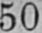50
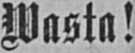Wasta!
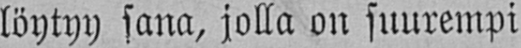Kielessämme löytyy sana, jolla on suurempi
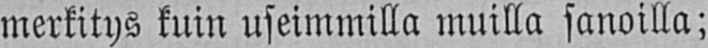merkitys kuin useimmilla muilla sanoilla;
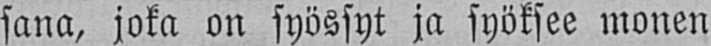sana, joka on syössyt ja syöksee monen
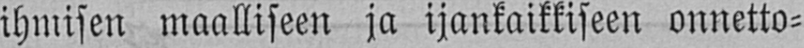ihmisen maalliseen ja ijankaikkiseen onnetto-
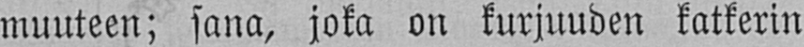muuteen; sana, joka on kurjuuden katkerin
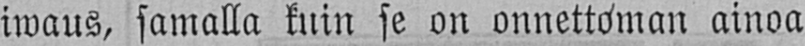iwaus, samalla kuin se on onnettoman ainoa
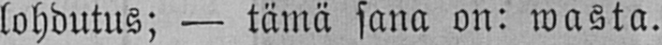lohdutus; — tämä sana on: wasta.
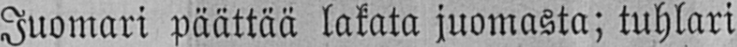Juomari päättää lakata juomasta; tuhlari
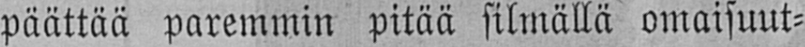päättää paremmin pitää silmällä omaisuut-
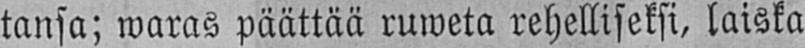tansa; waras päättää ruweta rehelliseksi, laiska
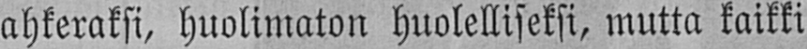ahkeraksi, huolimaton huolelliseksi, mutta kaikki
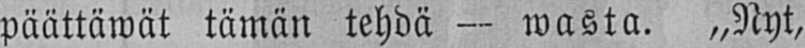päättäwät tämän tehdä — wasta. „Nyt,
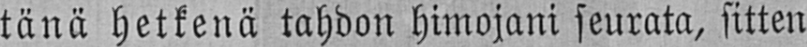tänä hetkenä tahdon himojani seurata, sitten
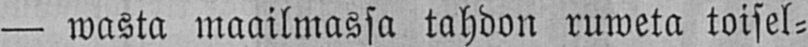— wasta maailmassa tahdon ruweta toisel-
